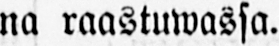na raastuwassa.
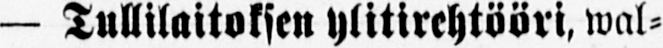— Tullilaitoksen ylitirehtööri, wal-
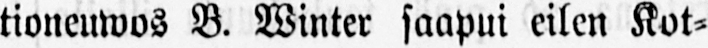tioneuwos B. Winter saapui eilen Kot-
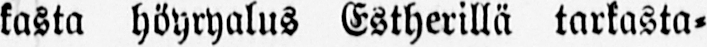kasta höyryalus Estherillä tarkasta-
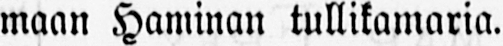maan Haminan tullikamaria.
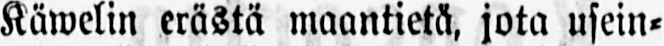K ä welin erästä maantietä, jota usein-
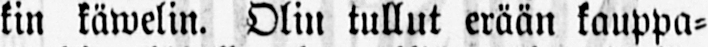kin käwelin. Olin tullut erään kauppa-
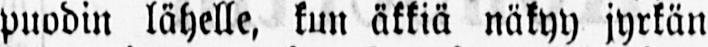puodin lähelle, kun äkkiä näkyy jyrkän
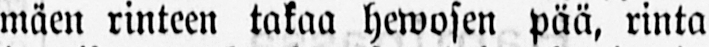mäen rinteen takaa hewosen pää, rinta
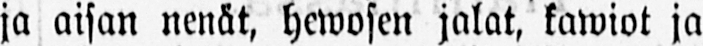ja aisan nenät, hewosen jalat, kawiot ja
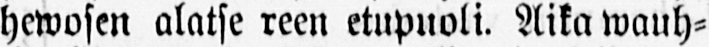hewosen alatse reen etupuoli. Aika wauh-
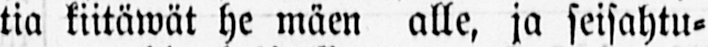tia kiitäwät he mäen alle, ja seisahtu-
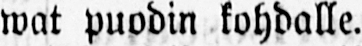wat puodin kohdalle.
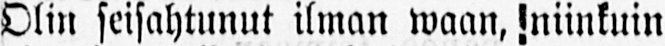Olin seisahtunut ilman waan, niinkuin
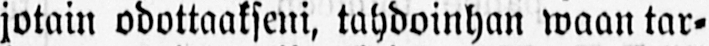jotain odottaakseni, tahdoinhan waan tar-
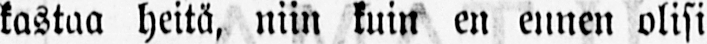kastaa heitä, niin kuin en ennen olisi
